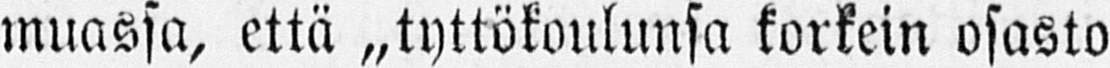muassa, että „tyttökoulunsa korkein osasto
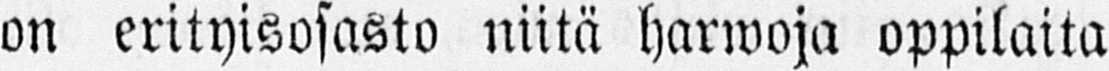on erityisosasto niitä harwoja oppilaita
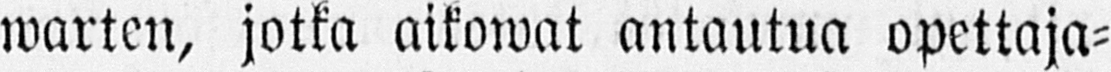warten, jotka aikowat antautua opettaja-
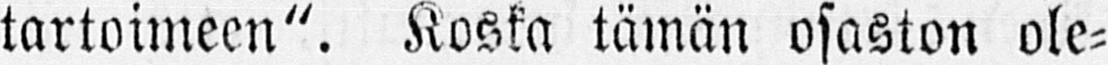tartoimeen". Koska tämän osaston ole-
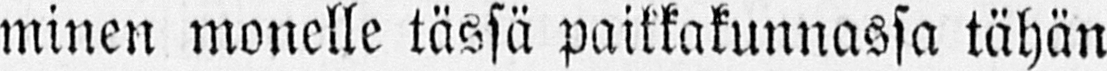minen monelle tässä paikkakunnassa tähän
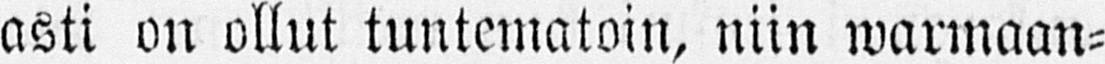asti on ollut tuntematoin, niin warmaan-
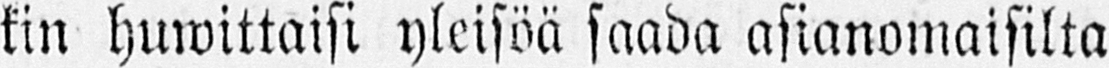kin huwittaisi yleisöä saada asianomaisilta
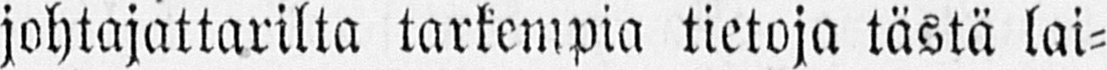johtajattarilta tarkempia tietoja tästä lai-
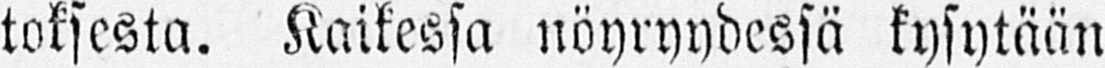toksesta. Kaikessa nöyryydessä kysytään
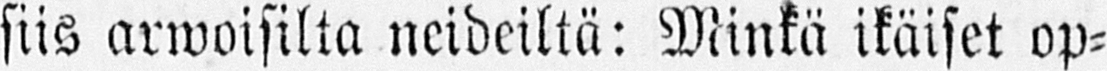siis arwoisilta neideiltä: Minkä ikäiset op-
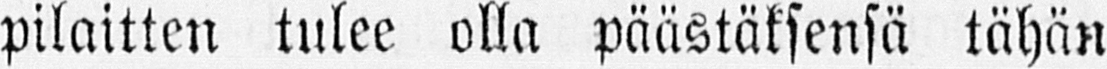pilaitten tulee olla päästäksensä tähän
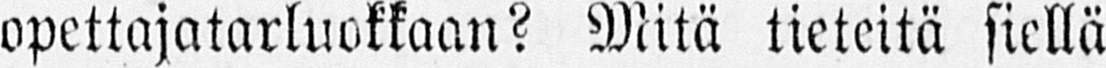opettajatarluokkaan? Mitä tieteitä siellä
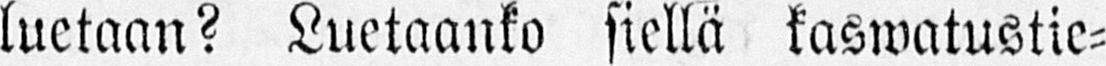luetaan? Luetaanko siellä kaswatustie-
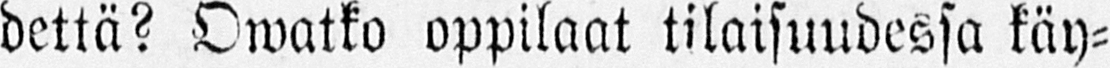dettä? Owatko oppilaat tilaisuudessa käy-
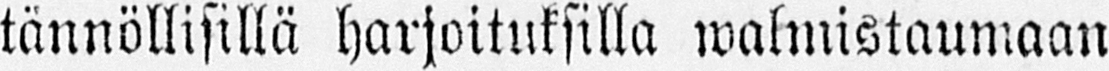tännöllisillä harjoituksilla walmistaumaan
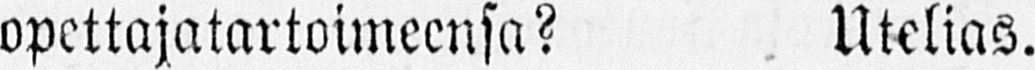opettajatartoimeensa? Utelias.
